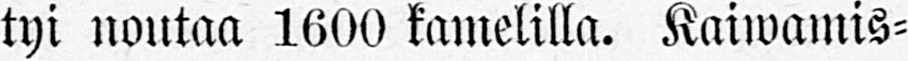tyi noutaa 1600 kamelilla. Kaiwamis-
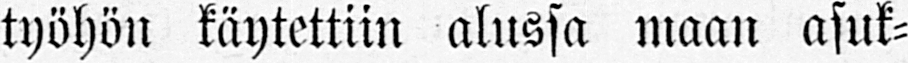työhön käytettiin alussa maan asuk-
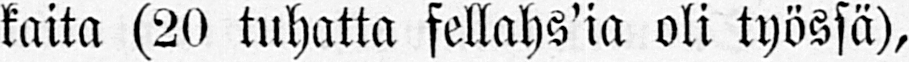kaita (20 tuhatta fellahs'ia oli työssä),
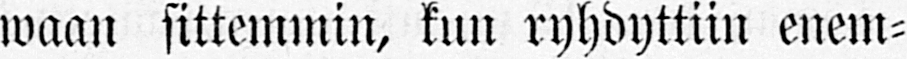waan sittemmin, kun ryhdyttiin enem-
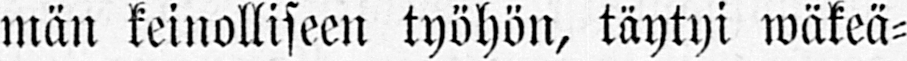män keinolliseen työhön, täytyi wäkeä-
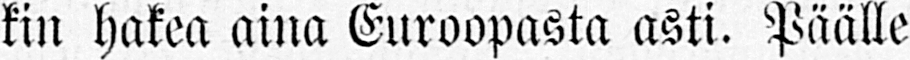kin hakea aina Euroopasta asti. Päälle
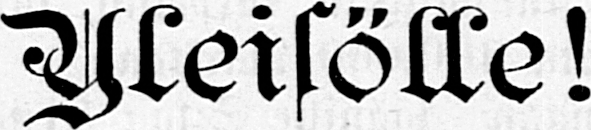Yleisölle!
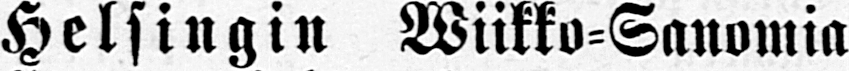Helsingin Wiikko-Sanomia
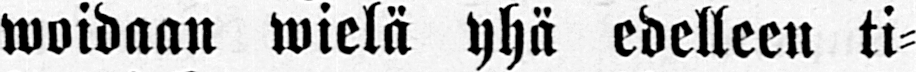woidaan wielä yhä edelleen ti-
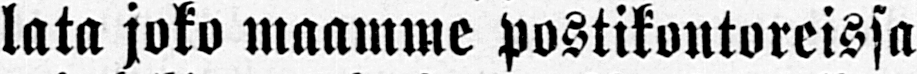lata joko maamme postikontoreissa
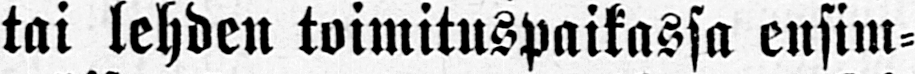tai lehden toimituspaikassa ensim-
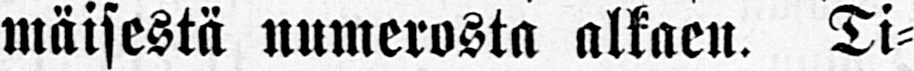mäisestä numerosta alkaen. Ti-
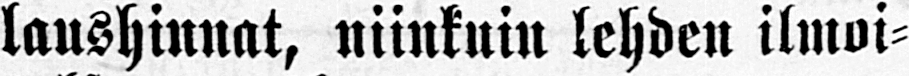laushinnat, niinkuin lehden ilmoi-
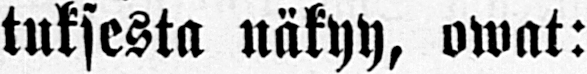tuksesta näkyy, owat:
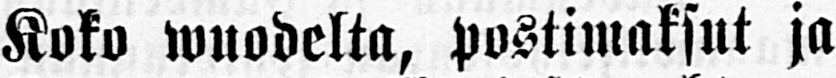Koko wuodelta, postimaksut ja
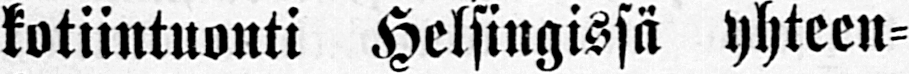kotiintuonti Helsingissä yhteen-
